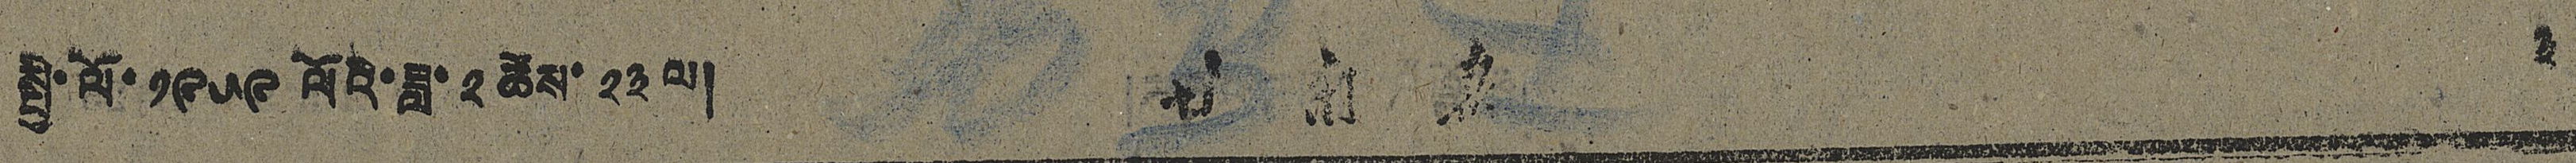སྤྱི་ལོ་ ༡༩༥༩ ལོའི་ཟླ་ ༢ ཚེས་ ༢༣ ལ། 甘 南 報 ༣
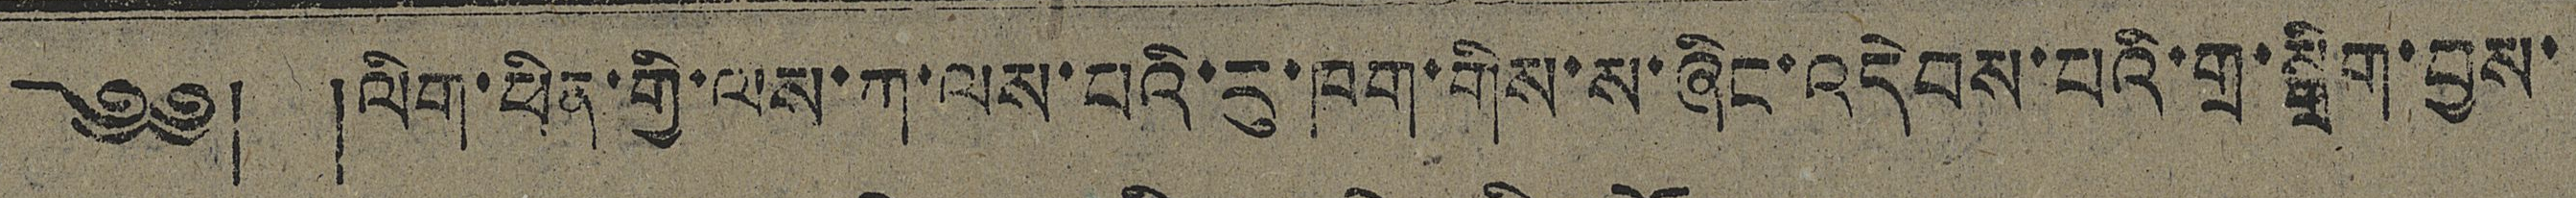༄༅། །ལིག་ཕིན་གྱི་ལས་ཀ་ལས་པའི་རུ་ཁག་གིས་ས་ཞིང་འདེབས་པའི་གྲ་སྒྲིག་བྱས་
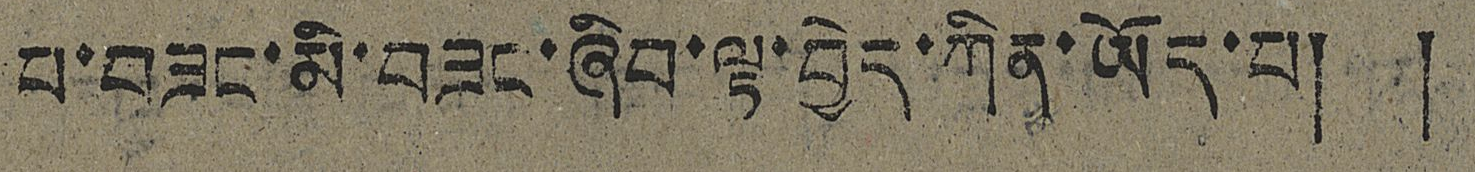པ་བཟང་མི་བཟང་ཞིབ་ལྟ་བྱེད་ཀིན་ཡོད་པ། །
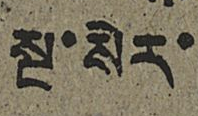སྔ་སེར་
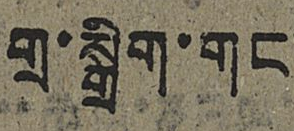གྲ་སྒྲིག་གང
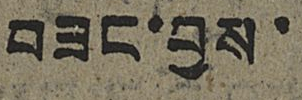བཟང་བྱས་
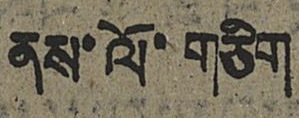ནས་ལོ་གཅིག
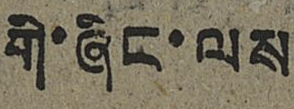གི་ཞིང་ལས
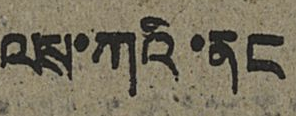ལས་ཀའི་ནང
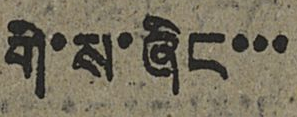གི་ས་ཞིང་་་
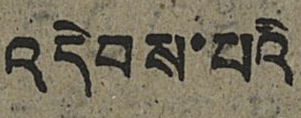འདེབས་པའི
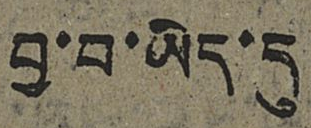བྱ་བ་ཡིད་དུ
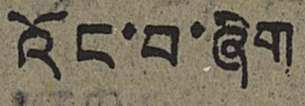འོང་བ་ཞིག
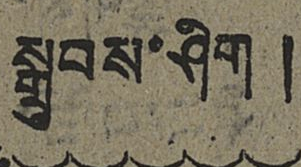སྒྲུབས་ཤིག །
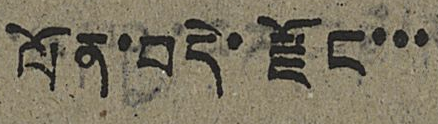ལོན་བདེ་རྫོང་་་
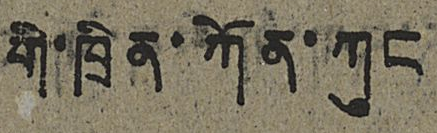གི་ཁྲིན་ཀོན་ཀུང
